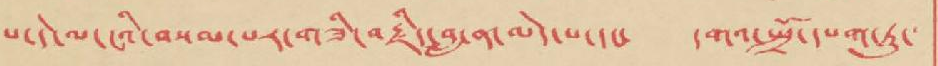པ་དེ་ལ་ངའི་བསམ་པར་གཟི་བརྗིད་བླ་ན་མེད་པ་དང་ དགའ་སྤྲོ་དམག་ཏུ་
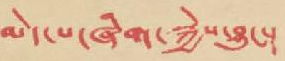མེད་པ་ཞིག་སྐྱེས་བྱུང་།
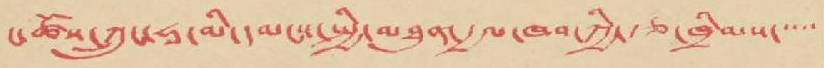ང་ཚོས་ཀྲུང་ཧཱ་མི་དམངས་སྤྱི་མཐུན་རྒྱལ་ཁབ་ཀྱི་རྩ་ཁྲིམས་་་་་
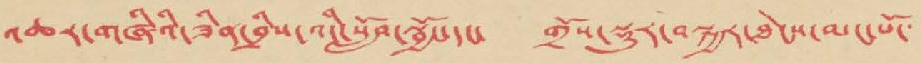འཆར་གཞིའི་ཟིན་བྲིས་འདི་སློབ་སྦྱོང་དང་ གྲོས་སྡུར་བསྐྱར་ཐེངས་མང་པོ་
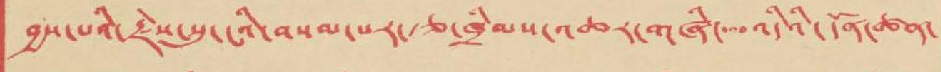བྱས་པའི་རྗེས་སུ་ངའི་བསམ་པར་རྩ་ཁྲིམས་འཆར་གཞི་་་འདིའི་དོན་ཚན་
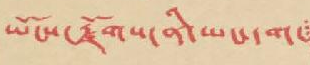ཡོངས་རྫོགས་ནི་ཡང་དག་
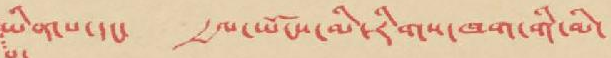ཡིན་པ་དང་ རྒྱལ་ཡོངས་མི་རིགས་ཁག་གི་མི་
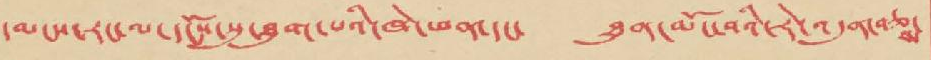དམངས་རང་ལ་དངོས་སུ་ཐུག་པའི་ཁེ་ཕན་དང་ ཐུན་མོང་བའི་རེ་འདུན་བཅས་
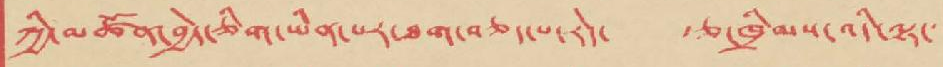ཀྱི་མཚོན་བྱེད་ཅིག་ཡིན་པར་ཐག་བཅད་པ་རེད་ རྩ་ཁྲིམས་འདི་ལྟ་
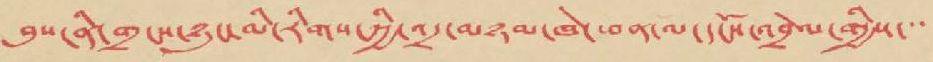བུས་ནི་གྲངས་ཉུང་མི་རིགས་ཀྱི་འདྲ་མཉམ་ཁེ་ཕན་ལ་དངོས་འབྲེལ་གྱིས་་་
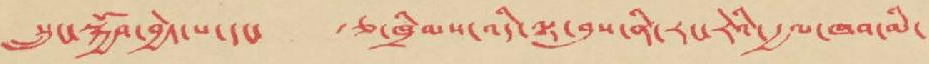སྲུང་སྐྱོབ་བྱེད་པ་དང་ རྩ་ཁྲིམས་འདི་ལྟ་བུས་ནི་རང་རེའི་རྒྱལ་ཁབ་མི་
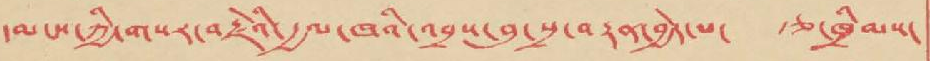དམངས་ཀྱི་གསར་བརྗེའི་རྒྱལ་ཁའི་འབྲས་བུ་སྲ་བརྟན་བྱེད་པ་ རྩ་ཁྲིམས་
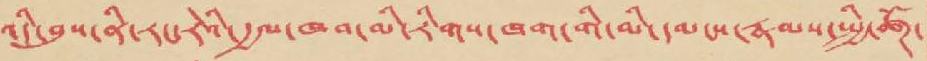འདི་བུས་ནི་རང་རེའི་རྒྱལ་ཁབ་མི་རིགས་ཁག་གི་མི་དམངས་རྣམས་སྤྱི་ཚོཊ་
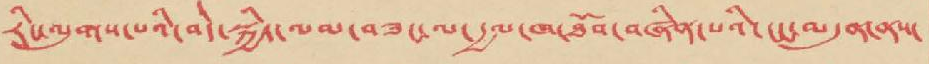རིང་ལུགས་པའི་བདེ་སྐྱིད་ལམ་བཟང་ལ་རྒྱལ་ཁ་ཐོབ་བཞིན་པའི་ངང་མདུན་ནས་
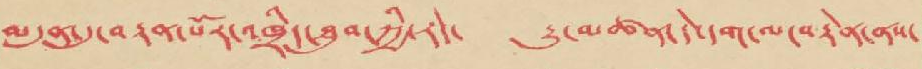མདུན་དུ་བརྟན་པོར་འཁྲིད་ཐུབ་ཀྱི་རེད་ རྒྱུ་མཚན་དེ་དག་ལ་བརྟེན་ནས་
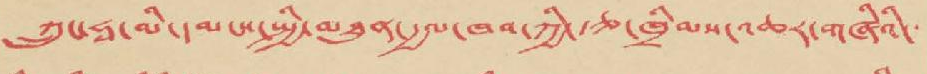ཀྲུང་ཧཱ་མི་དམངས་སྤྱི་མཐུན་རྒྱལ་ཁབ་ཀྱི་རྩ་ཁྲིམས་འཆར་གཞིའི་
